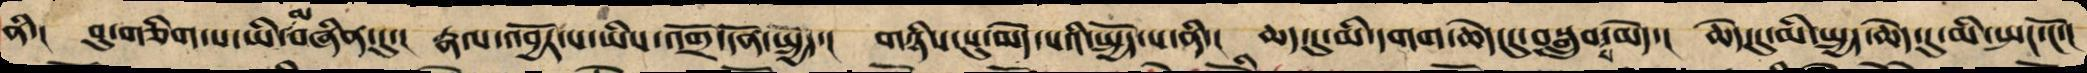ནི་།     བུ་གཅིག་པ་ཡི་མ་བཞིན་དུ་།   རྣལ་འབྱོར་པ་ཡིས་འགྲོ་དོན་སྤྱད་།   གཉིས་སུ་མེད་པའི་སྤྱོད་པ་ནི་།   ཆད་དུ་མི་དགག་ཆེད་དུ་བསྒྲུབ་པ་མེད་།   ཆེད་དུ་མི་སྤྱད་ཆེད་དུ་མི་སྤང་ངོ་།
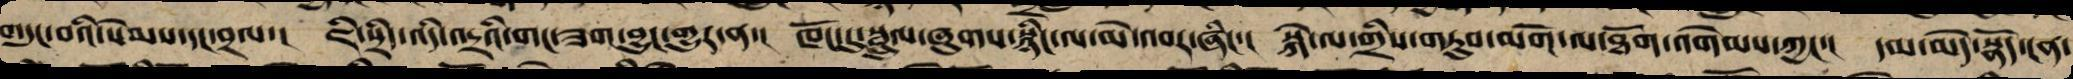གདུང་བའི་སེམས་དང་བྲལ་། ཇི་སྲིད་འདི་འདྲའི་གང་ཟག་བྱུང་གྱུར་ན་། ཁོང་དུ་སྦྲུལ་ཞུགས་སྙིང་ལ་མེ་འབར་ཞིང་། སྐེ་ལ་གྲིས་གཏུབ་མགོ་ལ་ཐོག་འགེམས་ཀྱང་། དམ་མེད་སྣོད་ངན་
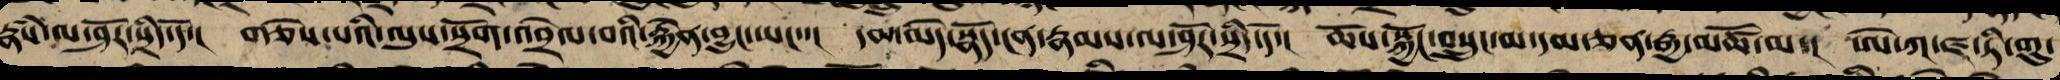རྣཾས་ལ་ཤོར་སྲིད་དོ་། གཅེས་པའི་ལུས་སྲོག་འབྲེལ་བའི་རྐྱེན་བྱུང་ཡང་་། དམ་མེད་སྣོད་ངན་རྣམས་ལ་ཤོར་སྲིད་དོ་། ཆོས་སྐྱོང་བསྲུང་མ་དམ་ཅན་རྒྱ་མཚོ་མ་། ཨེ་ཀ་ཛ་ཏི་གུ་
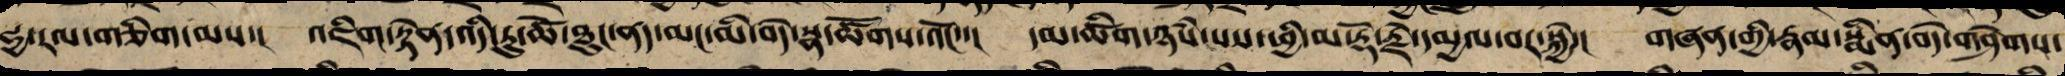ཧྱ་རལ་གཅིག་མས་། འཇིག་རྟེན་འདི་རུ་ཚེ་ཐུང་ནད་མང་མི་བདེ་སྣ་ཚོགས་འོང་་། དམ་ཚིག་ཉཾས་པས་ཕྱི་མ་རྡོ་རྗེ་དམྱལ་བར་སྐྱེ་། གཞན་གྱི་རྣམ་སྨིན་བདེ་གཤེགས་
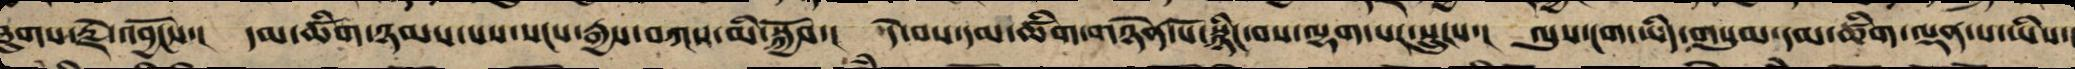ཐུགས་རྗེ་འབྱོངས་། དམ་ཚིག་ཉམས་པས་སངས་རྒྱས་བཀས་མི་སྐྱོབ་། དེ་བས་དམ་ཚིག་གཉན་པོ་སྙིང་བས་ལྷག་པར་སྲུངས་། ལུས་ངག་ཡིད་གསུམ་དམ་ཚིག་ལྡན་པ་ཡིས་།
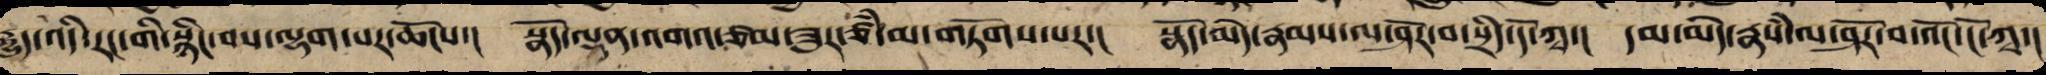རྒྱུད་འདི་རང་གི་སྙིང་བས་ལྷག་པར་ཆོངས་། སྣོད་ལྡན་འགའ་ཙམ་ཟུར་ཙཾ་མ་གཏོགས་པར་། སྣོད་མེད་རྣམས་ལ་ཤོར་བ་སྲིད་དོ་ཀྭ་། དམ་མེད་རྣཾས་ལ་ཤོར་བ་འོང་ངོ་ཀྭ་།
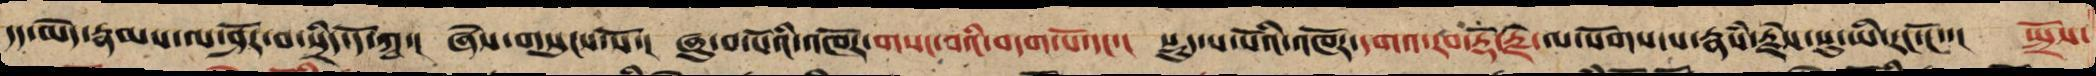དད་མེད་རྣམས་ལ་ཤོར་བ་སྲིད་དོ་ཀྭ་། ཞེས་གསུངས་སོ་། ཞུ་བ་པོའི་འཁོར་གསང་བའི་བདག་པོ་དང་། སྡུད་པ་པོའི་འཁོར་དགའ་རབ་རྡོ་རྗེ་ལ་སོགས་པ་རྣཾས་རྗེས་སུ་ཡི་རང་ངོ་་། སྤྲོས་
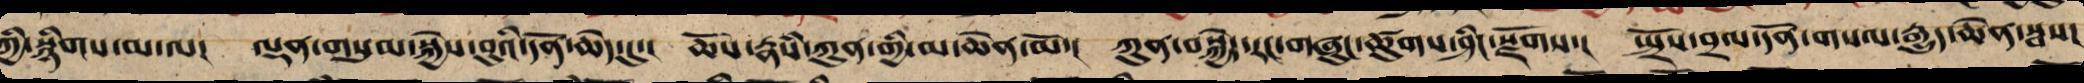ཀྱི་སྙིགས་མ་ལ། ལྡན་གསུམ་སྐྱེས་བུའི་དོན་ཆེད་དུ་། ཆོས་རྣཾས་ཀུན་གྱི་མ་ཆེན་མོ་། ཀུན་བསྐྱེད་རང་གཞུང་ཚུགས་ཤིང་སྫོགས་། སྤྲོས་བྲལ་དོན་གསལ་རྒྱུད་ཆེན་སྦས།
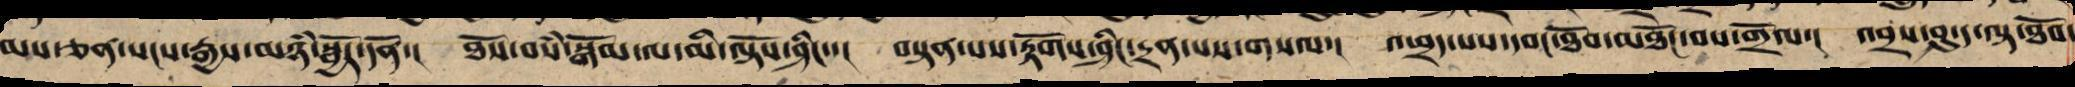མས་ཅན་སངས་རྒྱས་མཉཾ་སྦྱོར་དོན་། ཐོས་བསཾ་སྒོམ་ལ་མི་ལྟོས་ཤིང་་། བསྟན་པས་རྟོགས་ཤིང་དྲན་པས་གསལ་། འཕྲད་པས་དབང་ཐོབ་མཐོང་བས་གྲོལ་། འབྲས་བུ་ད་ལྟ་ཐོབ་
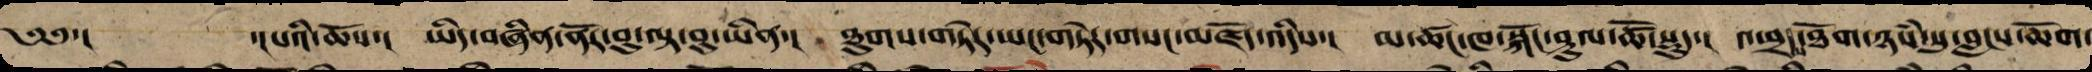༄༅་། ་།པའི་ཆོས་། ཡིད་བཞིན་ནོར་བུ་ལྟ་བུ་ཡིན་། ཐུགས་གཏེར་ཡང་གཏེར་གསང་མཛོད་འདིས་། མ་ཚང་ཁ་སྐོང་ཤུལ་ཚོ་སྡུད་། འཕྲལ་ཐོག་ཉཾས་སུ་བླངས་ཆོག་
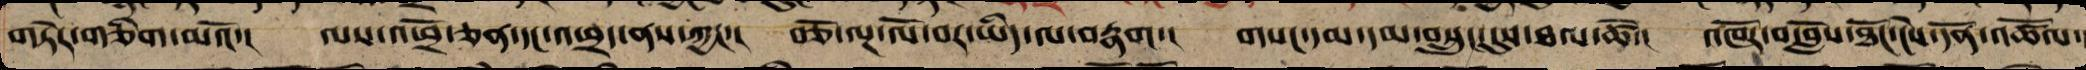གཏེར་གཅིག་མའོ་། ལས་འཕྲོ་ཅན་དང་འཕྲད་ནས་ཀྱང་། བཅོ་ལྔ་ལོ་བར་ཡིད་ལ་བརྣག་། གསང་དམ་དམ་བསྲུང་དུས་ཐལ་ཚེ་། འཁོར་བ་བློས་ཐོང་ངེས་དོན་འཚོལ་
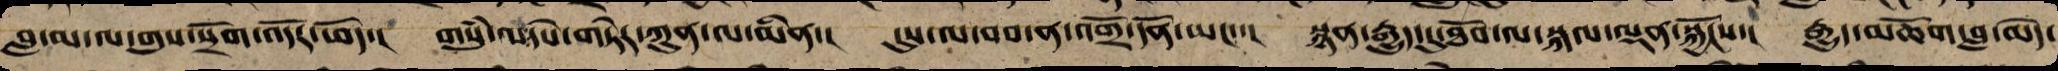བླ་མ་ལ་གུས་སྲོག་འདོར་ཕོད་། གསུཾ་ལ་དཔེ་གཏེར་ཀུན་ལ་མིན་། དུས་ལ་བབ་ན་འགྲོ་དོན་ཡོང་་། སྙན་རྒྱུད་དུ་ཐོབ་ལ་སྐལ་ལྡན་སྐྱོངས་། རྒྱུད་མཆོག་བླ་མེད་
